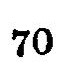70
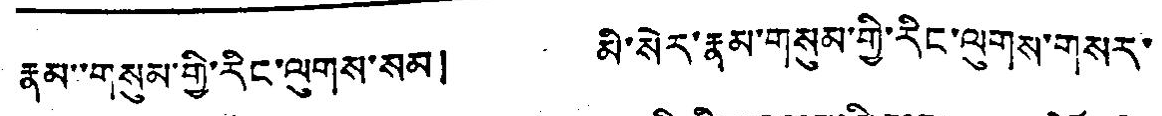རྣམ་་གསུམ་གྱི་རིང་ལུགས་སམ། མི་སེར་རྣམ་གསུམ་གྱི་རིང་ལུགས་གསར་
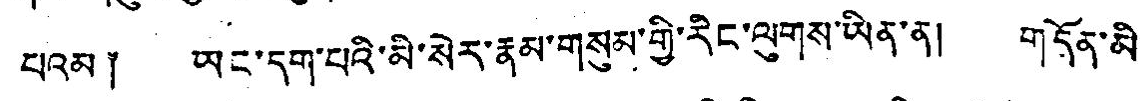པའམ ༐ ཡང་དག་པའི་མི་སེར་རྣམ་གསུམ་གྱི་རིང་ལུགས་ཡིན་ན། གདོན་མྱི་
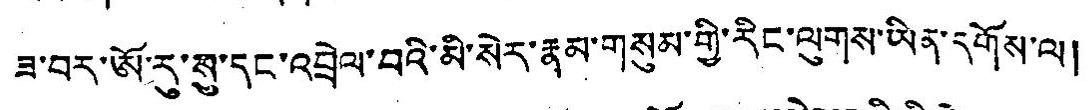ཟ་བར་ཨོ་རུ་སུ་དང་འབྲེལ་བའི་མི་སེར་རྣམ་གསུམ་གྱི་རིང་ལུགས་ཡིན་དགོས་ལ།
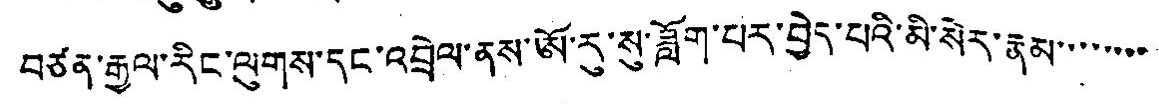བཙན་རྒྱལ་རིང་ལུགས་དང་འབྲེལ་ནས་ཨོ་རུ་སུ་ཟློག་པར་བྱེད་པའི་མི་སེར་རྣམ་་་་་་་་
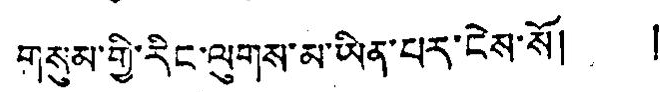གསུམ་གྱི་རིང་ལུགས་མ་ཡིན་པར་ངེས་སོ། །
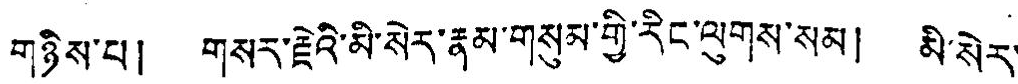གཉིས་པ། གསར་རྗེའི་མི་སེར་རྣམ་གསུམ་གྱི་རིང་ལུགས་སམ། མི་སེར་
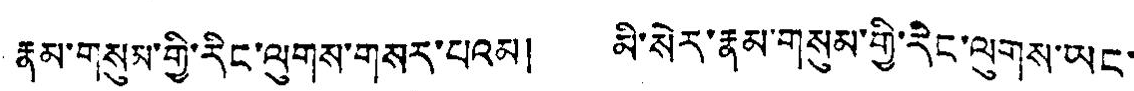རྣམ་གསུལ་གྱི་རིང་ལུགས་གསར་པའམ། མི་སེར་རྣམ་གསུམ་གྱི་རེང་ལུགས་ཡང་
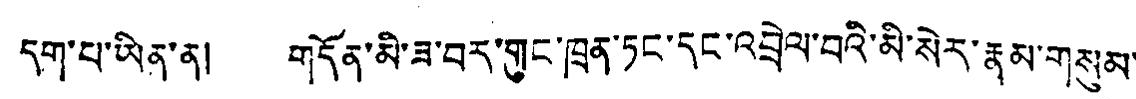དག་པ་ཡིན་ན། གདོན་མི་ཟ་བར་གུང་ཁྲན་ཏང་དང་འབྲེལ་བའི་མི་སེར་རྣམ་གསུམ་
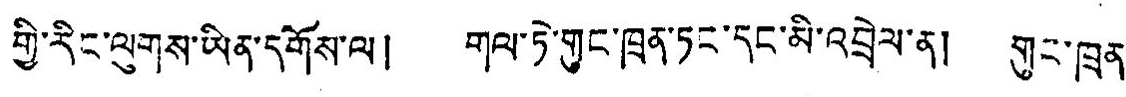གྱི་རིང་ལུགས་ཡིན་དགོས་ལ། གལ་ཏེ་གུང་ཁྲན་ཏང་དང་མི་འབྲེལ་ན། གུང་ཁྲན་
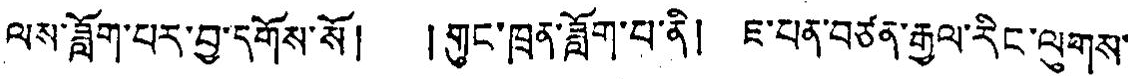ལས་ཟློག་པར་བྱ་དགོས་སོ། །གུང་ཁྲན་ཟློག་པ་ནི། ཇ་པན་བཙན་རྒྱལ་རིང་ལུགས་
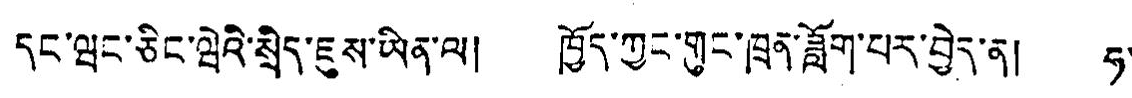དང་ཝང་ཅིང་ཝེའི་སྲིད་ཇུས་ཡིན་ལ། ཁྱོད་ཀྱང་གུང་ཁྲན་ཟློག་པར་བྱེད་ན། ཧ་
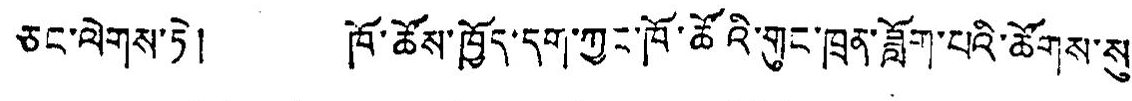ཅང་ལེགས་ཏེ། ཁོ་ཚོས་ཁྱོད་དགུ་ཀྱང་ཁོ་ཚོའི་གུང་ཁྲན་ཟློག་པའི་ཚོགས་སུ་
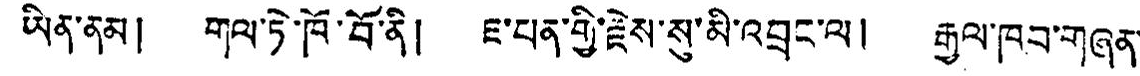ཡིན་ནམ། གལ་ཏེ་ཁོ་བོ་ནི། ཇ་པན་གྱི་རྗེས་སུ་མི་འབྲུང་ལ། རྒྱལ་ཁབ་གཞན་
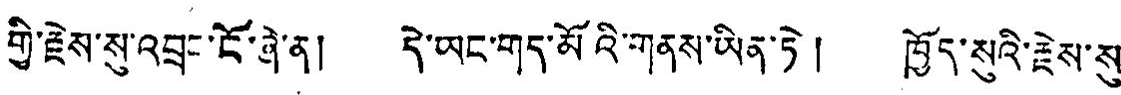གྱི་རྗེས་སུ་འབྲུང་ངོ་ཞེ་ན། དེ་ཡང་གད་མོའི་གནས་ཡིན་ཏེ། ཁྱོད་སུའི་རྗེས་སུ་
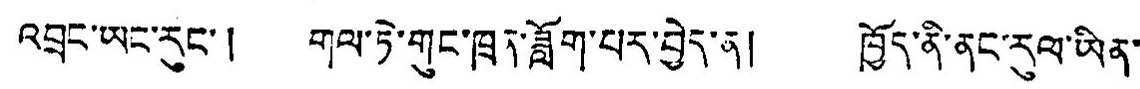འབྲུང་ཡང་རུང་། གལ་ཏེ་གུང་ཁྲན་ཟློག་པར་བྱེད་ན། ཁྱོད་ནི་ནང་རུལ་ཡིན་
